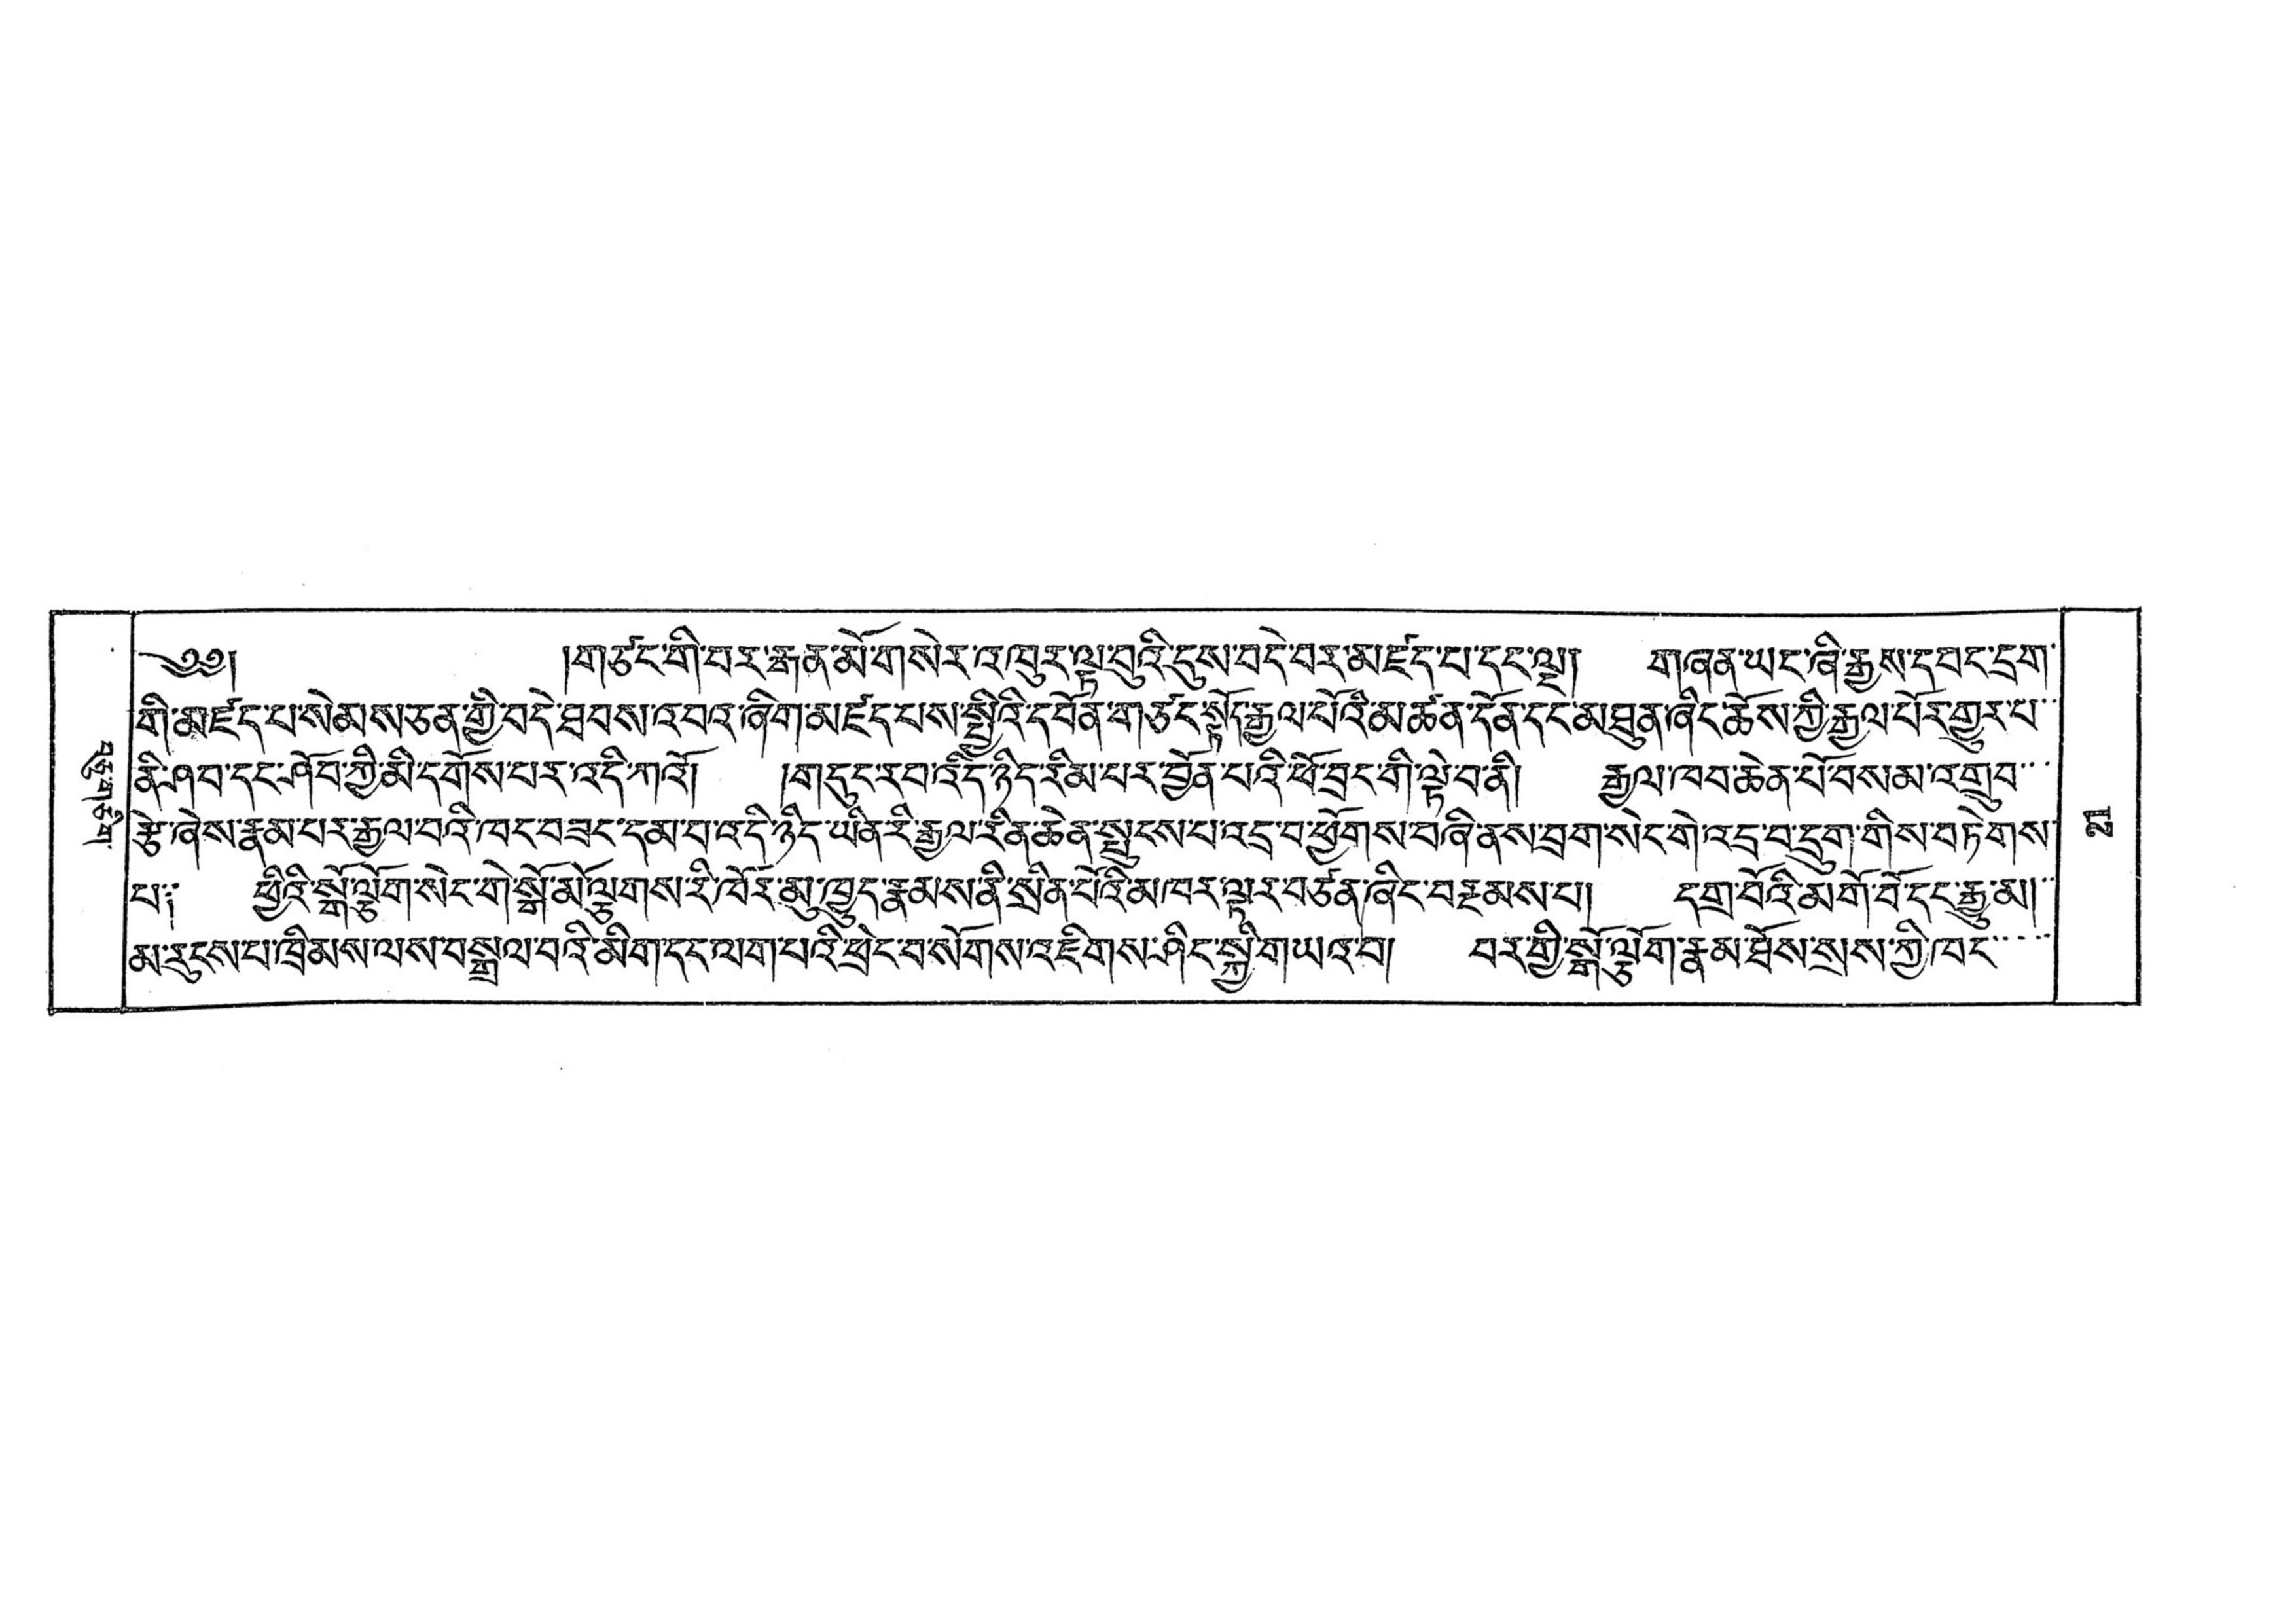བཅུ་གཅིག་
༄༅། །གཙང་གི་བར་རྒན་མོ་གསེར་འཁུར་ལྟ་བུའི་དུས་བདེ་བར་མཛད་པ་དང་ལྔ་། གཞན་ཡང་ཞི་རྒྱས་དབང་དྲག་
གི་མཛད་པ་སེམས་ཅན་གྱི་བདེ་ཐབས་འབའ་ཞིག་མཛད་པས་སྤྱིའི་དབོན་གཙང་སྟོད་རྒྱལ་པོའི་མཚན་དོན་དང་མཐུན་ཞིང་ཆོས་ཀྱི་རྒྱལ་པོར་གྱུར་པ་་
ནི་ཤབ་དང་ཤོབ་ཀྱི་མི་དགོས་པར་འདི་ཀའོ། །གདུང་རབ་འིད་ཉིད་རིམ་པར་བྱོན་པའི་ཕོ་བྲང་གི་ལྟེ་བ་ནི། རྒྱལ་ཁབ་ཆེན་པོ་བསམ་འགྲུབ་་་
རྩེ་ཞེས་རྣམ་པར་རྒྱལ་བའི་ཁང་བཟང་དམ་པ་འདི་ཉིད་ཡིན་རི་རྒྱལ་རིན་ཆེན་སྤུངས་པ་འདྲ་བ་ཕྱོགས་བཞི་ནས་བྲག་སེང་གེ་འདྲ་བ་དྲུག་གིས་བཏེགས་
པ༑ ཕྱིའི་སྒོ་ལྕོག་སེང་གེ་སྒོ་མོེ་ལྕགས་རི་ཁོར་མུ་ཁྱུད་རྣམས་ནི་སྲིན་པོའི་མཁར་ལྟར་བཙན་ཞིང་བརྔམས་པ། དགྲ་བོའི་མགོ་བོ་དང་རྒྱུ་མ།
མ་རུངས་པ་ཁྲིམས་ལས་བསྒྲལ་བའི་མིག་དང་ལག་པའི་ཕྲེང་བ་སོགས་འཇིགས་ཤིང་སྐྱི་གཡའ་བ། བར་གྱི་སྒོ་ལྕོག་རྣམ་ཐོས་སྲས་ཀྱི་ཁང་་་་་
